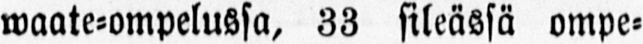waate-ompelussa, 33 sileässä ompe-
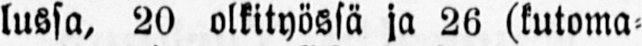lussa, 20 olkityössä ja 26 (kutoma-
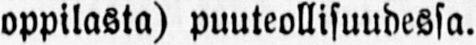oppilasta) puuteollisuudessa.
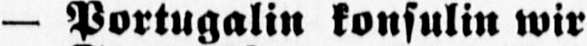— Portugalin konsulin wir-
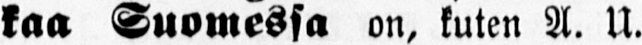kaa Suomessa on, kuten A. U.
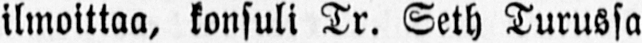ilmoittaa, konsuli Tr. Seth Turussa
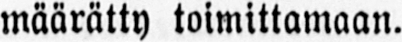määrätty toimittamaan.
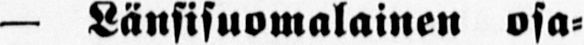— Länsisuomalainen osa-
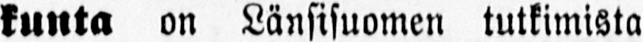kunta on Länsisuomen tutkimista
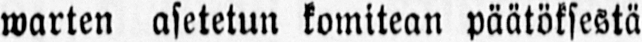warten asetetun komitean päätöksestä
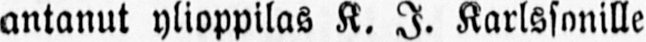antanut ylioppilas K. I. Karlssonille
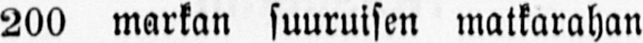200 markan suuruisen matkarahan
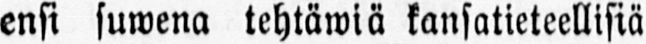ensi suwena tehtäwiä kansatieteellisiä
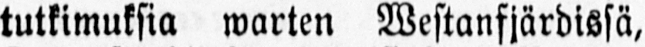tutkimuksia warten Westanfjärdissä,
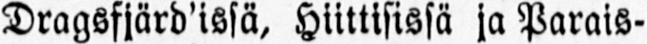Dragsfjärd’issä, Hiittisissä ja Parais-
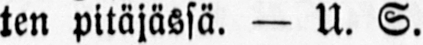ten pitäjässä. — U. S.
